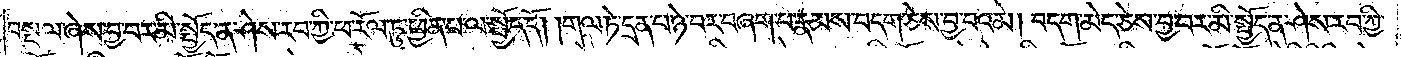བསྔལ་ཞེས་བྱ་བར་མི་སྤྱོད་ན་ཤེས་རབ་ཀྱི་ཕ་རོལ་ཏུ་ཕྱིན་པ་ལ་སྤྱོད་དོ། །གལ་ཏེ་དྲན་པ་ཉེ་བར་བཞག་པ་རྣམས་བདག་ཅེས་བྱ་བའམ། བདག་མེད་ཅེས་བྱ་བར་མི་སྤྱོད་ན་ཤེས་རབ་ཀྱི་
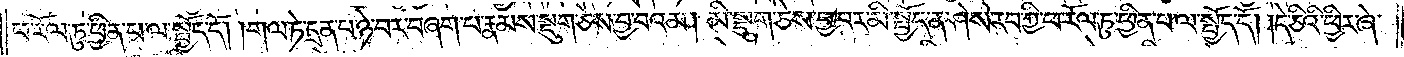ཕ་རོལ་ཏུ་ཕྱིན་པ་ལ་སྤྱོད་དོ། །གལ་ཏེ་དྲན་པ་ཉེ་བར་བཞག་པ་རྣམས་སྡུག་ཅེས་བྱ་བའམ། མི་སྡུག་ཅེས་བྱ་བར་མི་སྤྱོད་ན་ཤེས་རབ་ཀྱི་ཕ་རོལ་ཏུ་ཕྱིན་པ་ལ་སྤྱོད་དོ། །དེ་ཅིའི་ཕྱིར་ཞེ་
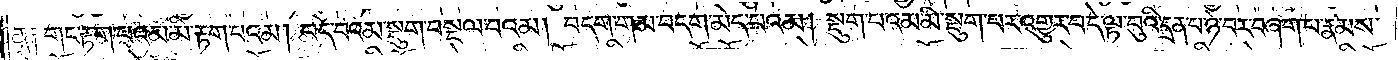ན༑ གང་རྟག་པའམ་མི་རྟག་པའམ། བདེ་བའམ་སྡུག་བསྔལ་བའམ། བདག་གམ་བདག་མེད་པའམ། སྡུག་པའམ་མི་སྡུག་པར་འགྱུར་བ་དེ་ལྟ་བུའི་དྲན་པ་ཉེ་བར་བཞག་པ་རྣམས་
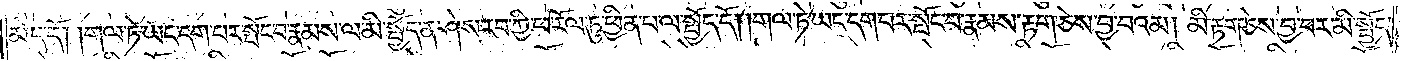མེད་དོ། །གལ་ཏེ་ཡང་དག་པར་སྤོང་བ་རྣམས་ལ་མི་སྤྱོད་ན་ཤེས་རབ་ཀྱི་ཕ་རོལ་ཏུ་ཕྱིན་པ་ལ་སྤྱོད་དོ། །གལ་ཏེ་ཡང་དག་པར་སྤོང་བ་རྣམས་རྟག་ཅེས་བྱ་བའམ། མི་རྟག་ཅེས་བྱ་བར་མི་སྤྱོད་
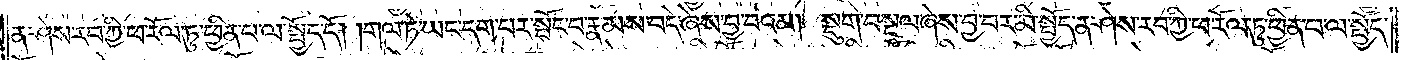ན་ཤེས་རབ་ཀྱི་ཕ་རོལ་ཏུ་ཕྱིན་པ་ལ་སྤྱོད་དོ། །གལ་ཏེ་ཡང་དག་པར་སྤོང་བ་རྣམས་བདེ་ཞེས་བྱ་བའམ། སྡུག་བསྔལ་ཞེས་བྱ་བར་མི་སྤྱོད་ན་ཤེས་རབ་ཀྱི་ཕ་རོལ་ཏུ་ཕྱིན་པ་ལ་སྤྱོད་
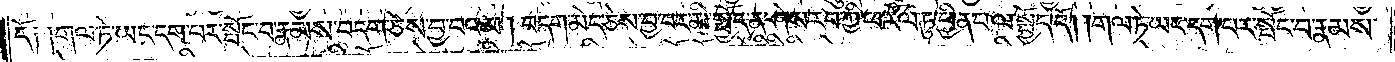དོ༑ ༑གལ་ཏེ་ཡང་དག་པར་སྤོང་བ་རྣམས་བདག་ཅེས་བྱ་བའམ། བདག་མེད་ཅེས་བྱ་བར་མི་སྤྱོད་ན་ཤེས་རབ་ཀྱི་ཕ་རོལ་ཏུ་ཕྱིན་པ་ལ་སྤྱོད་དོ། །གལ་ཏེ་ཡང་དག་པར་སྤོང་བ་རྣམས་
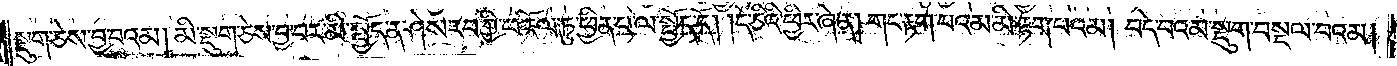སྡུག་ཅེས་བྱ་བའམ། མི་སྡུག་ཅེས་བྱ་བར་མི་སྤྱོད་ན་ཤེས་རབ་ཀྱི་ཕ་རོལ་ཏུ་ཕྱིན་པ་ལ་སྤྱོད་དོ། །དེ་ཅིའི་ཕྱིར་ཞེ་ན། གང་རྟག་པའམ་མི་རྟག་པའམ། བདེ་བའམ་སྡུག་བསྔལ་བའམ།
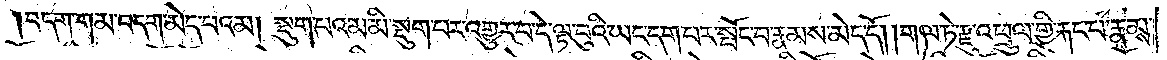བདག་གམ་བདག་མེད་པའམ། སྡུག་པའམ་མི་སྡུག་པར་འགྱུར་བ་དེ་ལྟ་བུའི་ཡང་དག་པར་སྤོང་བ་རྣམས་མེད་དོ། །གལ་ཏེ་རྫུ་འཕྲུལ་གྱི་རྐང་པ་རྣམས་
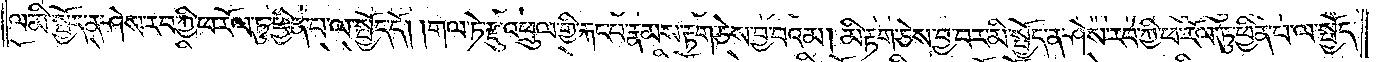ལ་མི་སྤྱོད་ན་ཤེས་རབ་ཀྱི་ཕ་རོལ་ཏུ་ཕྱིན་པ་ལ་སྤྱོད་དོ། །གལ་ཏེ་རྫུ་འཕྲུལ་གྱི་རྐང་པ་རྣམས་རྟག་ཅེས་བྱ་བའམ། མི་རྟག་ཅེས་བྱ་བར་མི་སྤྱོད་ན་ཤེས་རབ་ཀྱི་ཕ་རོལ་ཏུ་ཕྱིན་པ་ལ་སྤྱོད་
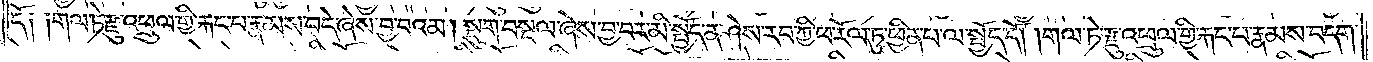དོ༑ ༑གལ་ཏེ་རྫུ་འཕྲུལ་གྱི་རྐང་པ་རྣམས་བདེ་ཞེས་བྱ་བའམ། སྡུག་བསྔལ་ཞེས་བྱ་བར་མི་སྤྱོད་ན་ཤེས་རབ་ཀྱི་ཕ་རོལ་ཏུ་ཕྱིན་པ་ལ་སྤྱོད་དོ། །གལ་ཏེ་རྫུ་འཕྲུལ་གྱི་རྐང་པ་རྣམས་བདག་
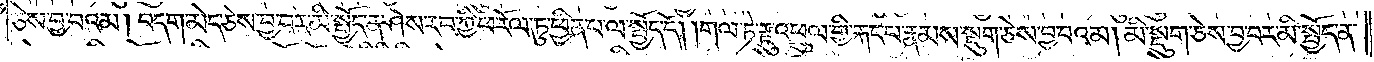ཅེས་བྱ་བའམ། བདག་མེད་ཅེས་བྱ་བར་མི་སྤྱོད་ན་ཤེས་རབ་ཀྱི་ཕ་རོལ་ཏུ་ཕྱིན་པ་ལ་སྤྱོད་དོ། །གལ་ཏེ་རྫུ་འཕྲུལ་གྱི་རྐང་པ་རྣམས་སྡུག་ཅེས་བྱ་བའམ། མི་སྡུག་ཅེས་བྱ་བར་མི་སྤྱོད་ན་
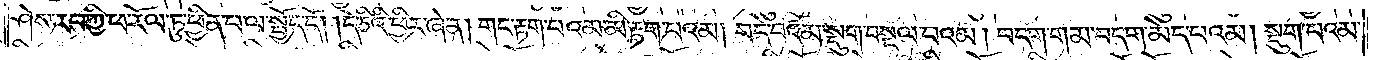ཤེས་རབ་ཀྱི་ཕ་རོལ་ཏུ་ཕྱིན་པ་ལ་སྤྱོད་དོ། །དེ་ཅིའི་ཕྱིར་ཞེ་ན། གང་རྟག་པའམ་མི་རྟག་པའམ། བདེ་བའམ་སྡུག་བསྔལ་བའམ། བདག་གམ་བདག་མེད་པའམ། སྡུག་པའམ་
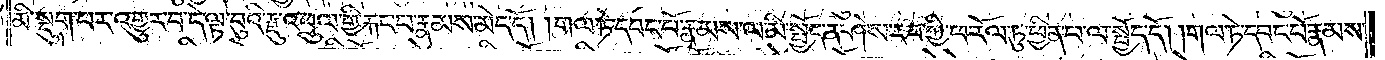མི་སྡུག་པར་འགྱུར་བ་དེ་ལྟ་བུའི་རྫུ་འཕྲུལ་གྱི་རྐང་པ་རྣམས་མེད་དོ། །གལ་ཏེ་དབང་པོ་རྣམས་ལ་མི་སྤྱོད་ན་ཤས་རབ་ཀྱི་ཕ་རོལ་ཏུ་ཕྱིན་པ་ལ་སྤྱོད་དོ། །གལ་ཏེ་དབང་པོ་རྣམས་
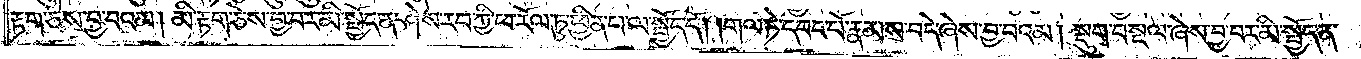རྟག་ཅེས་བྱ་བའམ། མི་རྟག་ཅེས་བྱ་བར་མི་སྤྱོད་ན་ཤེས་རབ་ཀྱི་ཕ་རོལ་ཏུ་ཕྱིན་པ་ལ་སྤྱོད་དོ། །གལ་ཏེ་དབང་པོ་རྣམས་བདེ་ཞེས་བྱ་བའམ། སྡུག་བསྔལ་ཞེས་བྱ་བར་མི་སྤྱོད་ན་
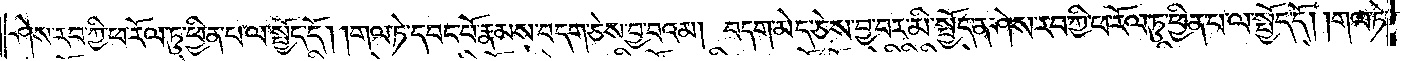ཤེས་རབ་ཀྱི་ཕ་རོལ་ཏུ་ཕྱིན་པ་ལ་སྤྱོད་དོ། །གལ་ཏེ་དབང་པོ་རྣམས་བདག་ཅེས་བྱ་བའམ། བདག་མེད་ཅེས་བྱ་བར་མི་སྤྱོད་ན་ཤེས་རབ་ཀྱི་ཕ་རོལ་ཏུ་ཕྱིན་པ་ལ་སྤྱོད་དོ། །གལ་ཏེ་
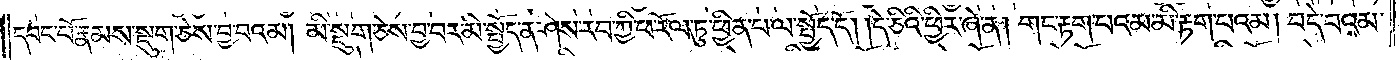དབང་པོ་རྣམས་སྡུག་ཅེས་བྱ་བའམ། མི་སྡུག་ཅེས་བྱ་བར་མི་སྤྱོད་ན་ཤེས་རབ་ཀྱི་ཕ་རོལ་ཏུ་ཕྱིན་པ་ལ་སྤྱོད་དོ། །དེ་ཅིའི་ཕྱིར་ཞེ་ན། གང་རྟག་པའམ་མི་རྟག་པའམ། བདེ་བའམ་
